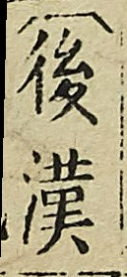（後漢
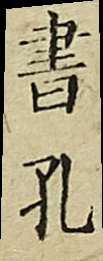書）孔
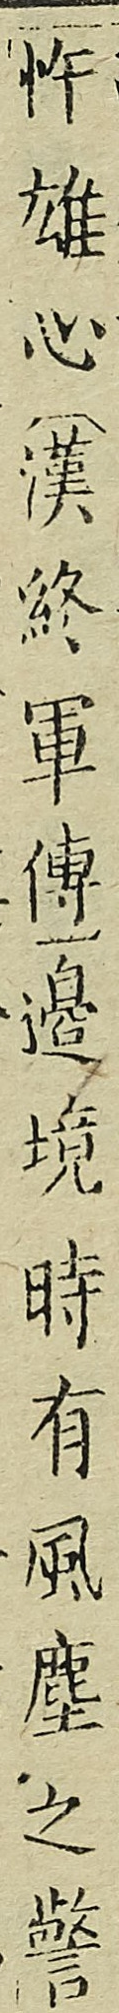忤雄心（漢終軍傳）邊境時有風塵之警
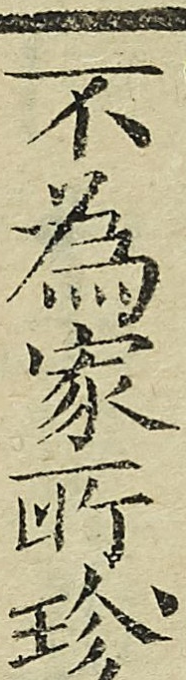不為家所珍
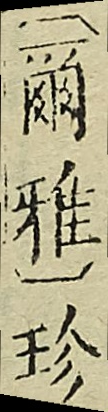（爾雅）珍
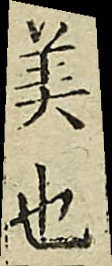美也
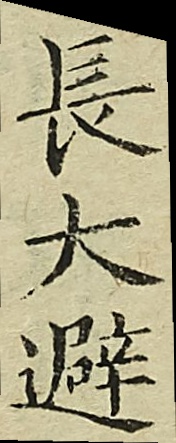長大避
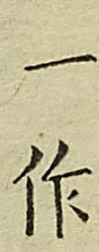一作
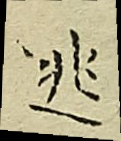逃
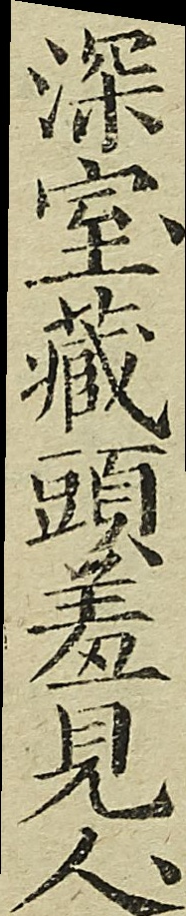深室藏頭羞見人
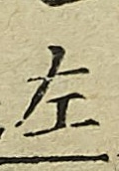左
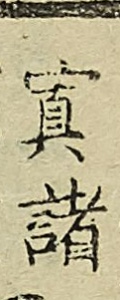寘諸
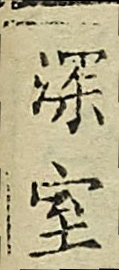深室
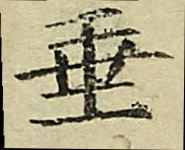垂
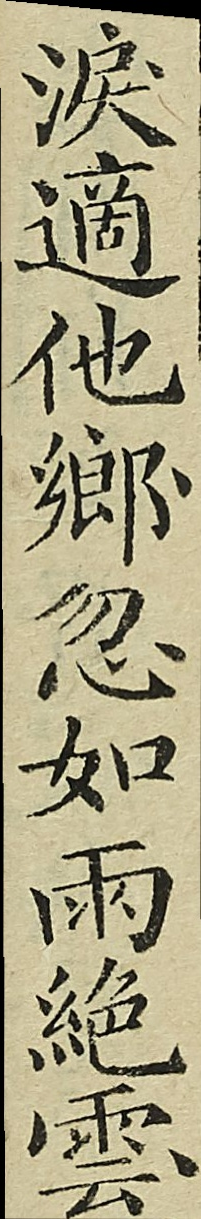淚適他鄉忽如雨絕雲
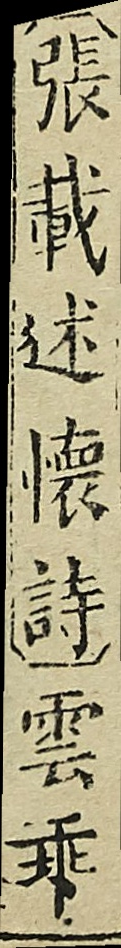（張載述懷詩）雲乘
